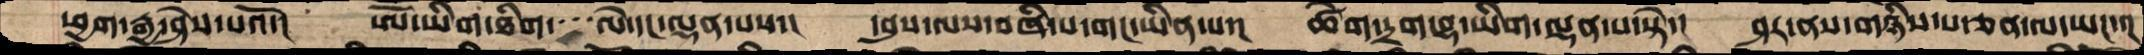ཕྱག་རྒྱ་ཤེས་པའོ་།  ཨོ་ཡིག་ཐིག་་་་ལེ་དང་ལྡན་པས་།  དབུས་ལས་བཞི་པ་གང་ཡིན་པ་།  ཚེག་དྲག་བྷ་ཡིག་ལྡན་པ་སྟེ་།  ཤར་ནས་གཉིས་པ་ཅན་ལ་ཡང་་།
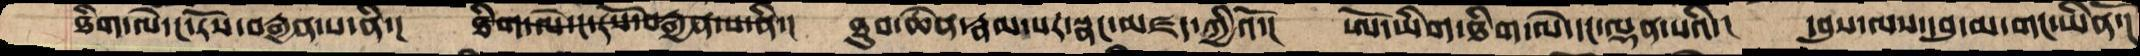ཐིག་ལེ་ང་རོས་བརྒྱན་པ་ནི་།  ཐིག་ལེ་ང་རོས་བརྒྱན་པ་ནི་།  ཐུབ་ཆེན་རྣམ་པར་སྣང་མཛད་ཀྱིའོ་།  ཨོ་ཡིག་ཐིག་ལེ་དང་ལྡན་པའི་།  དབུས་ལས་དབུ་མ་གང་ཡིནོ་།
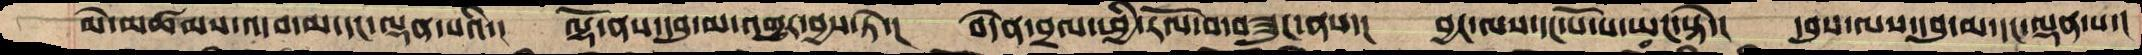མེ་མཚམས་འདབ་མ་དང་ལྡན་པའི་།  ལྷོ་ནས་དབུ་མ་འགྱུར་བྱས་ཏེ་།  བདེན་བྲལ་ཕྱི་རོལ་བ་བཟུང་ནས་།  བྱང་ལས་དང་པོ་པ་ཡང་སྟེ་།  དབུས་ལས་དབུ་མ་དང་ལྡན་པ་།
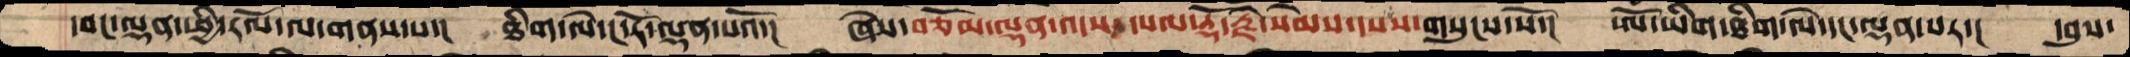དབང་ལྡན་ཕྱི་རོལ་ལ་གནས་པ་།  ཐིག་ལེ་ང་རོ་ལྡན་པའོ་།  ཞེས་བཅོམ་ལྡན་འདས་དཔལ་རྡོ་རྗེ་སེམས་དཔས་གསུངས་སོ་།  ཨོ་ཡིག་ཐིག་ལེ་དང་ལྡན་པར་།  དབུས་
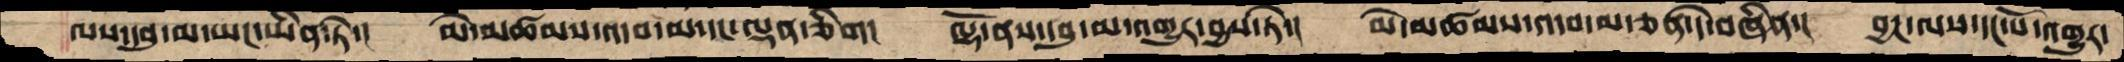ལས་དབུ་མ་ཡང་ཡིན་ཏེ་།  མེ་མཚམས་འདབ་མ་དང་ལྡན་ཅིག།  ལྷོ་ནས་དབུ་མ་འགྱུར་བྱས་ཏེ་།  མེ་མཚམས་འདབ་མ་ཅན་དེ་བཞིན་།  བྱང་ལས་དང་པོ་འགྱུར་
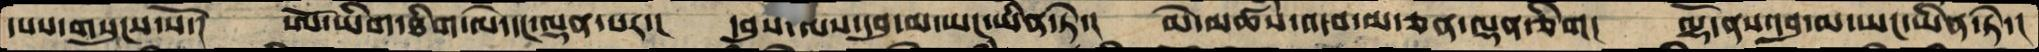དཔས་གསུངས་སོ་།  ཨོ་ཡིག་ཐིག་ལེ་དང་ལྡན་པར་།  དབུས་ལས་དབུ་མ་ཡང་ཡིན་ཏེ་།  མེ་མཚམས་འདབ་མ་ཅན་ལྷན་ཅིག།  ལྷོ་ནས་དབུ་མ་ཡང་ཡིན་ཏེ་།
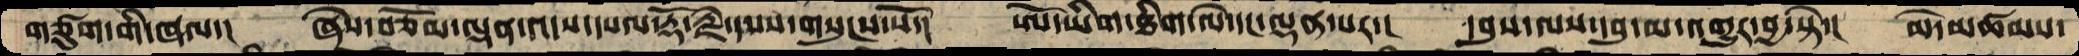གཙུག་གི་ཞལ་།  ཞེས་བཅོམ་ལྡན་འདས་དཔལ་རྡོ་རྗེ་དཔས་གསུངས་སོ་།  ཨོ་ཡིག་ཐིག་ལེ་དང་ལྡན་པར་།  དབུས་ལས་དབུ་མ་འགྱུར་བྱ་སྟེ་།  མེ་མཚམས་
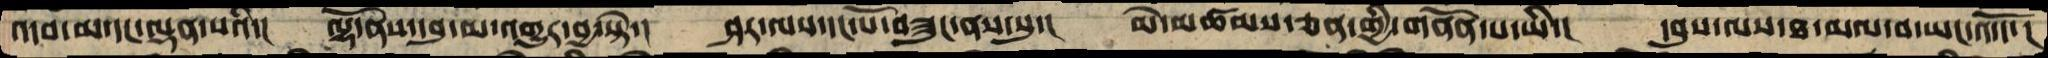འདབ་མ་དང་ལྡན་པའི་།  ལྷོ་ནས་དབུ་མ་འགྱུར་བྱ་སྟེ་།   ཤར་ལས་དང་པོ་བཟུང་ནས་སུ་།  མེ་མཚམས་ཅན་གྱི་གནོན་པ་ཡི་།  དབུས་ལས་ཐ་མལ་བ་ཡང་འདོད་།
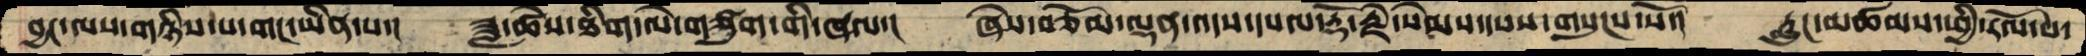བྱང་ལས་གཉིས་པ་གང་ཡིན་པ་།  ཟླ་ཚེས་ཐིག་ལེ་གཙུག་གི་ཞལ་།  ཞེས་བཅོམ་ལྡན་འདས་དཔལ་རྡོ་རྗེ་སེམས་དཔས་གསུངས་སོ་།  རླུང་མཚམས་ཕྱི་རོལ་པ་
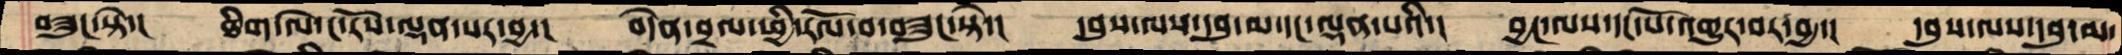བཟུང་སྟེ་།  ཐིག་ལེ་ང་རོས་ལྡན་པར་བྱ་།  བདེན་བྲལ་ཕྱི་རོལ་བ་བཟུང་སྟེ་།  དབུས་ལས་དབུ་མ་དང་ལྡན་པའི་།  བྱང་ལས་དང་པོ་འགྱུར་བར་བྱ་། དབུས་ལས་དབུ་མ་
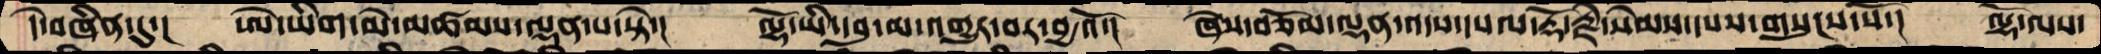དེ་བཞིན་དུ་།  ཨེ་ཡིག་མེ་མཚམས་ལྡན་པ་སྟེ་།  ལྷོ་ཡི་དབུ་མ་འགྱུར་བར་བྱའོ་།  ཞེས་བཅོམ་ལྡན་འདས་དཔལ་རྡོ་རྗེ་སེམས་དཔས་གསུངས་སོ་།  ལྷོ་ལས་
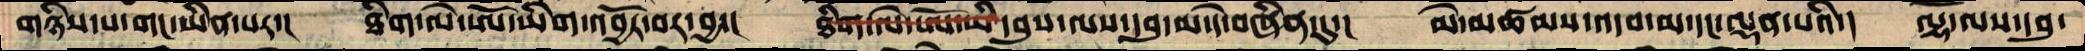གཉིས་པ་གང་ཡིན་པར་།  ཐིག་ལེ་ཨོ་ཡིག་འབྱོར་བར་བྱ་།  ཐིག་ལེ་ཨོ་ཡི་དབུས་ལས་དབུ་མ་དེ་བཞིན་དུ་།  མེ་མཚམས་འདབ་མ་དང་ལྡན་པའི་།  ལྷོ་ལས་དབུ་
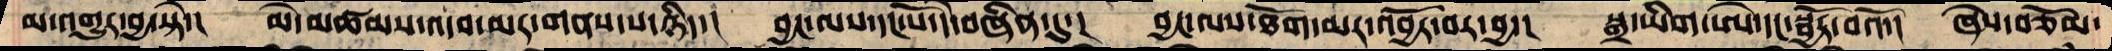མ་འགྱུར་བྱ་སྟེ་།  མེ་མཚམས་འདབ་མར་གནས་པ་ཉིད་།  བྱང་ལས་དང་པོ་དེ་བཞིན་དུ་།  བྱང་ལས་ཐོག་མར་འབྱོར་བར་བྱ་།  སྒྲ་ཡིག་ཨེ་དང་སྦྱོར་བའོ་།  ཞེས་བཅོམ་
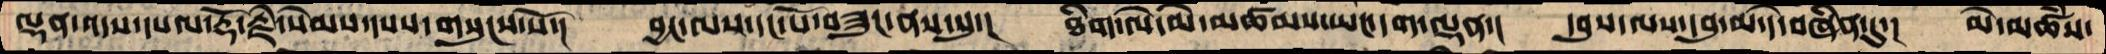ལྡན་འདས་དཔལ་རྡོ་རྗེ་སེམས་དཔས་གསུངས་སོ་།  བྱང་ལས་དང་པོ་བཟུང་ནས་སུ་།  ཐིག་ལེ་མེ་མཚམས་ཡང་དག་ལྡན་།  དབུས་ལས་དབུ་མ་དེ་བཞིན་དུ་།  མེ་མཚཾས་
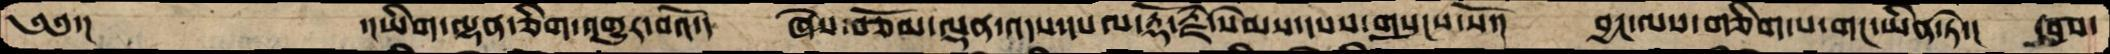༄༅་།     ་།ཡིག་ལྷན་ཅིག་འགྱུར་བའོ་།  ཞེས་བཅོམ་ལྡན་འདས་དཔལ་རྡོ་རྗེ་སེམས་དཔས་གསུངས་སོ་།  བྱང་ལས་གཅིག་པ་གང་ཡིན་ཏེ་།  དབུས་
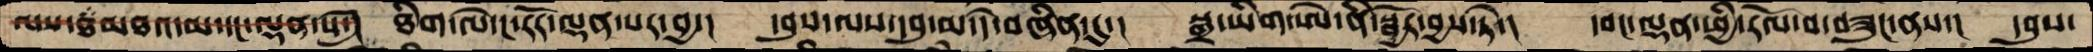ལས་ཐམཐའ་མ་དང་ལྡན་པ་།  ཐིག་ལེ་ང་རོར་ལྡན་པར་བྱ་།  དབུས་ལས་དབུ་མ་དེ་བཞིན་དུ་།  སྒྲ་ཡིག་ཨེ་ནི་སྦྱོར་བྱས་ཏེ་། དབང་ལྡན་ཕྱི་རོལ་བ་བཟུང་ནས་།  དབུས་
